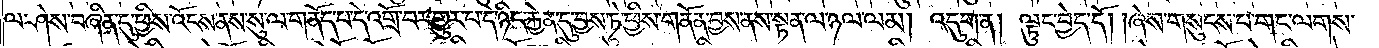ལ་ཤེས་བཞིན་དུ་ཕྱིས་འོངས་ནས་སུ་ལ་གནོད་པ་དེ་འགྲོ་བར་གྱུར་པ་དེ་ཉིད་རྐྱེན་དུ་བྱས་ཏེ་ཕྱིས་གནོན་བྱས་ནས་སྟན་ལ་ཉལ་ལམ། འདུག་ན། ལྟུང་བྱེད་དོ། །ཞེས་གསུངས་པ་གང་ལགས་
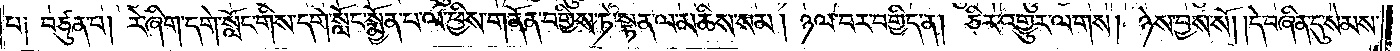པ༑ བཙུན་པ། རེ་ཞིག་དགེ་སློང་གིས་དགེ་སློང་སྨྱོན་པ་ལ་ཕྱིས་གནོན་བགྱིས་ཏེ་སྟན་ལ་མཆིས་སམ། ཉལ་བར་བགྱིད་ན། ཅིར་འགྱུར་ལགས། ཉེས་བྱས་སོ། །དེ་བཞིན་དུ་སེམས་
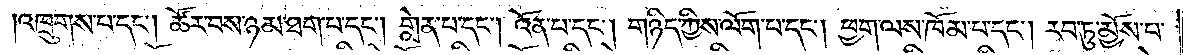འཁྲུགས་པ་དང༌། ཚོར་བས་ཉམ་ཐག་པ་དང༌། གླེན་པ་དང༌། འོན་པ་དང༌། གཉིད་ཀྱིས་ལོག་པ་དང༌། ཕྱག་ལས་ཁོམ་པ་དང༌། རབ་ཏུ་མྱོས་པ་
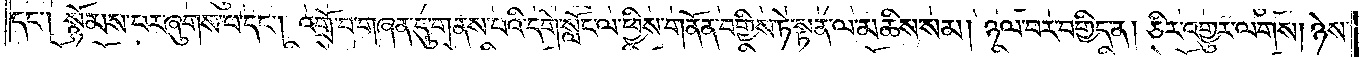དང༌། སྙོམས་པར་ཞུགས་པ་དང༌། འགྲོ་བ་གཞན་དུ་གནས་པའི་དགེ་སློང་ལ་ཕྱིས་གནོན་བགྱིས་ཏེ་སྟན་ལ་མཆིས་སམ། ཉལ་བར་བགྱིད་ན། ཅིར་འགྱུར་ལགས། ཉེས་
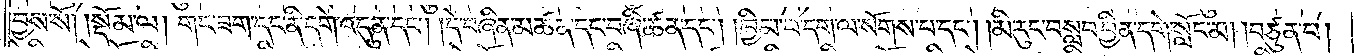བྱས་སོ།    །སྡོམ་ལ། གང་ཟག་དང་ནི་དགེ་འདུན་དང༌། །དེ་བཞིན་མཚན་དང་བཞི་ཚན་དང༌། ཁྱིམ་པ་དག་ལ་སོགས་པ་དང༌། །མི་རུང་བསླབ་བྱིན་དགེ་སློང་མ། །བཙུན་པ།
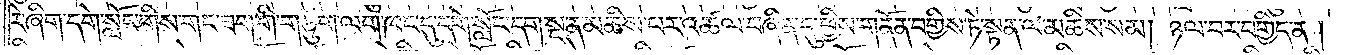རེ་ཞིག་དགེ་སློང་གིས་གང་ཟག་གི་གཙུག་ལག་ཁང་དུ་དགེ་སློང་དག་སྔ་ན་མཆིས་པར་འཚལ་བཞིན་དུ་ཕྱིས་གནོན་བགྱིས་ཏེ་སྟན་ལ་མཆིས་སམ། ཉལ་བར་བགྱིད་ན།
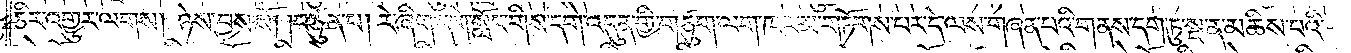ཅིར་འགྱུར་ལགས། ཉེས་བྱས་སོ། །བཙུན་པ། རེ་ཞིག་དགེ་སློང་གིས་དགེ་འདུན་གྱི་གཙུག་ལག་ཁང་མ་གཏོགས་པར་དེ་ལས་གཞན་པའི་གནས་དག་ཏུ་སྔ་ན་མཆིས་པའི་
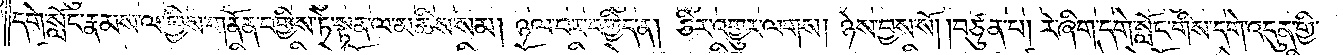དགེ་སློང་རྣམས་ལ་ཕྱིས་གནོན་བགྱིས་ཏེ་སྟན་ལ་མཆིས་སམ། ཉལ་བར་བགྱིད་ན། ཅིར་འགྱུར་ལགས། ཉེས་བྱས་སོ། །བཙུན་པ། རེ་ཞིག་དགེ་སློང་གིས་དགེ་འདུན་གྱི་
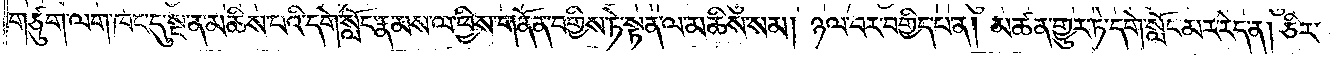གཙུག་ལག་ཁང་དུ་སྔ་ན་མཆིས་པའི་དགེ་སློང་རྣམས་ལ་ཕྱིས་གནོན་བགྱིས་ཏེ་སྟན་ལ་མཆིས་སམ། ཉལ་བར་བགྱིད་པ་ན། མཚན་གྱུར་ཏེ་དགེ་སློང་མར་རེད་ན། ཅིར་
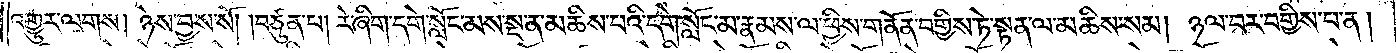འགྱུར་ལགས། ཉེས་བྱས་སོ། །བཙུན་པ། རེ་ཞིག་དགེ་སློང་མས་སྔ་ན་མཆིས་པའི་དགེ་སློང་མ་རྣམས་ལ་ཕྱིས་གནོན་བགྱིས་ཏེ་སྟན་ལ་མཆིས་སམ། ཉལ་བར་བགྱིས་པ་ན།
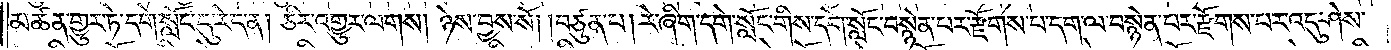མཚན་གྱུར་ཏེ་དགེ་སློང་དུ་རེད་ན། ཅིར་འགྱུར་ལགས། ཉེས་བྱས་སོ། །བཙུན་པ། རེ་ཞིག་དགེ་སློང་གིས་དགེ་སློང་བསྙེན་པར་རྫོགས་པ་དག་ལ་བསྙེན་པར་རྫོགས་པར་འདུ་ཤེས་
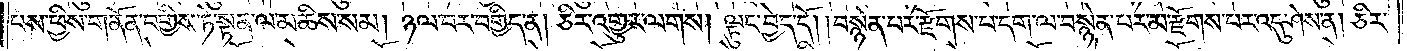པས་ཕྱིས་གནོན་བགྱིས་ཏེ་སྟན་ལ་མཆིས་སམ། ཉལ་བར་བགྱིད་ན། ཅིར་འགྱུར་ལགས། ལྟུང་བྱེད་དོ། །བསྙེན་པར་རྫོགས་པ་དག་ལ་བསྙེན་པར་མ་རྫོགས་པར་འདུ་ཤེས་ན། ཅིར་
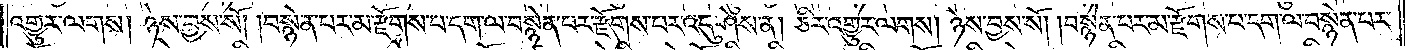འགྱུར་ལགས། ཉེས་བྱས་སོ། །བསྙེན་པར་མ་རྫོགས་པ་དག་ལ་བསྙེན་པར་རྫོགས་པར་འདུ་ཤེས་ན། ཅིར་འགྱུར་ལགས། ཉེས་བྱས་སོ། །བསྙེན་པར་མ་རྫོགས་པ་དག་ལ་བསྙེན་པར་
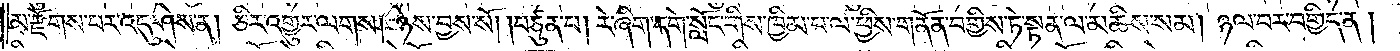མ་རྫོགས་པར་འདུ་ཤེས་ན། ཅིར་འགྱུར་ལགས། ཉེས་བྱས་སོ། །བཙུན་པ། རེ་ཞིག་དགེ་སློང་གིས་ཁྱིམ་པ་ལ་ཕྱིས་གནོན་བགྱིས་ཏེ་སྟན་ལ་མཆིས་སམ། ཉལ་བར་བགྱིད་ན།
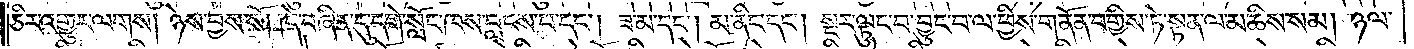ཅིར་འགྱུར་ལགས། ཉེས་བྱས་སོ། །དེ་བཞིན་དུ་དགེ་སློང་ཁས་བླངས་པ་དང༌། ཟ་མ་དང༌། མ་ནིང་དང༌། སྔར་ལྟུང་བ་བྱུང་བ་ལ་ཕྱིས་གནོན་བགྱིས་ཏེ་སྟན་ལ་མཆིས་སམ། ཉལ་
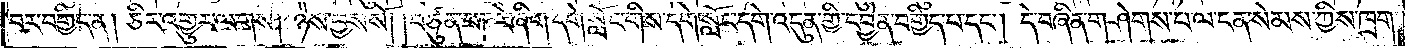བར་བགྱིད་ན། ཅིར་འགྱུར་ལགས། ཉེས་བྱས་སོ། །བཙུན་པ། རེ་ཞིག་དགེ་སློང་གིས་དགེ་སློང་དགེ་འདུན་གྱི་དབྱེན་བགྱིད་པ་དང༌། དེ་བཞིན་གཤེགས་པ་ལ་ངན་སེམས་ཀྱིས་ཁྲག་
